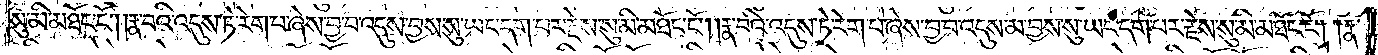སུ་མི་མཐོང་ངོ༌། །རྣ་བའི་འདུས་ཏེ་རེག་པ་ཞེས་བྱ་བ་འདུས་བྱས་སུ་ཡང་དག་པར་རྗེས་སུ་མི་མཐོང་ངོ༌། །རྣ་བའི་འདུས་ཏེ་རེག་པ་ཞེས་བྱ་བ་འདུས་མ་བྱས་སུ་ཡང་དག་པར་རྗེས་སུ་མི་མཐོང་ངོ༌། །རྣ་
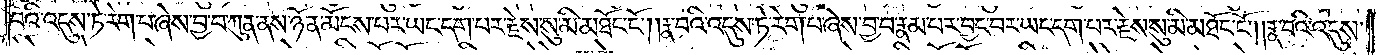བའི་འདུས་ཏེ་རེག་པ་ཞེས་བྱ་བ་ཀུན་ནས་ཉོན་མོངས་པར་ཡང་དག་པར་རྗེས་སུ་མི་མཐོང་ངོ༌། །རྣ་བའི་འདུས་ཏེ་རེག་པ་ཞེས་བྱ་བ་རྣམ་པར་བྱང་བར་ཡང་དག་པར་རྗེས་སུ་མི་མཐོང་ངོ༌། །རྣ་བའི་འདུས་
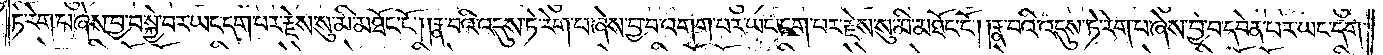ཏེ་རེག་པ་ཞེས་བྱ་བ་སྐྱེ་བར་ཡང་དག་པར་རྗེས་སུ་མི་མཐོང་ངོ༌། །རྣ་བའི་འདུས་ཏེ་རེག་པ་ཞེས་བྱ་བ་འགག་པར་ཡང་དག་པར་རྗེས་སུ་མི་མཐོང་ངོ༌། །རྣ་བའི་འདུས་ཏེ་རེག་པ་ཞེས་བྱ་བ་དབེན་པར་ཡང་དག་
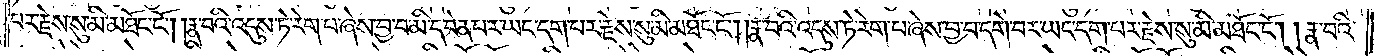པར་རྗེས་སུ་མི་མཐོང་ངོ༌། །རྣ་བའི་འདུས་ཏེ་རེག་པ་ཞེས་བྱ་བ་མི་དབེན་པར་ཡང་དག་པར་རྗེས་སུ་མི་མཐོང་ངོ༌། །རྣ་བའི་འདུས་ཏེ་རེག་པ་ཞེས་བྱ་བ་དགེ་བར་ཡང་དག་པར་རྗེས་སུ་མི་མཐོང་ངོ༌། །རྣ་བའི་
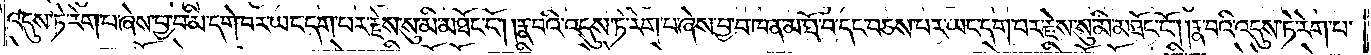འདུས་ཏེ་རེག་པ་ཞེས་བྱ་བ་མི་དགེ་བར་ཡང་དག་པར་རྗེས་སུ་མི་མཐོང་ངོ༌། །རྣ་བའི་འདུས་ཏེ་རེག་པ་ཞེས་བྱ་བ་ཁ་ན་མ་ཐོ་བ་དང་བཅས་པར་ཡང་དག་པར་རྗེས་སུ་མི་མཐོང་ངོ༌། །རྣ་བའི་འདུས་ཏེ་རེག་པ་
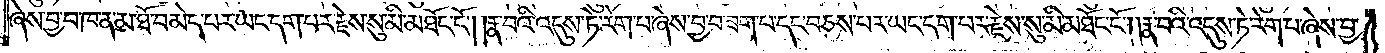ཞེས་བྱ་བ་ཁ་ན་མ་ཐོ་བ་མེད་པར་ཡང་དག་པར་རྗེས་སུ་མི་མཐོང་ངོ༌། །རྣ་བའི་འདུས་ཏེ་རེག་པ་ཞེས་བྱ་བ་ཟག་པ་དང་བཅས་པར་ཡང་དག་པར་རྗེས་སུ་མི་མཐོང་ངོ༌། །རྣ་བའི་འདུས་ཏེ་རེག་པ་ཞེས་བྱ་
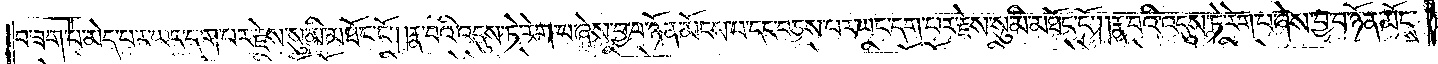བ་ཟག་པ་མེད་པར་ཡང་དག་པར་རྗེས་སུ་མི་མཐོང་ངོ༌། །རྣ་བའི་འདུས་ཏེ་རེག་པ་ཞེས་བྱ་བ་ཉོན་མོངས་པ་དང་བཅས་པར་ཡང་དག་པར་རྗེས་སུ་མི་མཐོང་ངོ༌། །རྣ་བའི་འདུས་ཏེ་རེག་པ་ཞེས་བྱ་བ་ཉོན་མོངས་
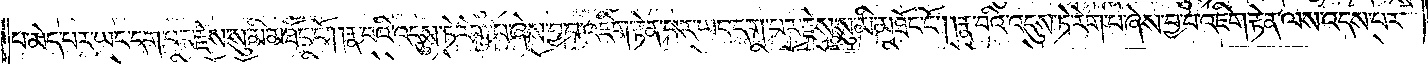པ་མེད་པར་ཡང་དག་པར་རྗེས་སུ་མི་མཐོང་ངོ༌། །རྣ་བའི་འདུས་ཏེ་རེག་པ་ཞེས་བྱ་བ་འཇིག་རྟེན་པར་ཡང་དག་པར་རྗེས་སུ་མི་མཐོང་ངོ༌། །རྣ་བའི་འདུས་ཏེ་རེག་པ་ཞེས་བྱ་བ་འཇིག་རྟེན་ལས་འདས་པར་
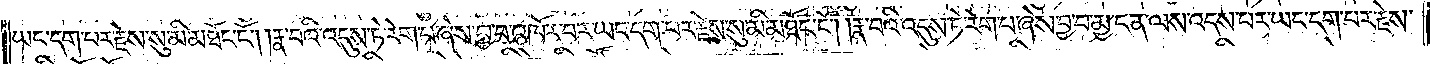ཡང་དག་པར་རྗེས་སུ་མི་མཐོང་ངོ༌། །རྣ་བའི་འདུས་ཏེ་རེག་པ་ཞེས་བྱ་བ་འཁོར་བར་ཡང་དག་པར་རྗེས་སུ་མི་མཐོང་ངོ༌། །རྣ་བའི་འདུས་ཏེ་རེག་པ་ཞེས་བྱ་བ་མྱ་ངན་ལས་འདས་པར་ཡང་དག་པར་རྗེས་
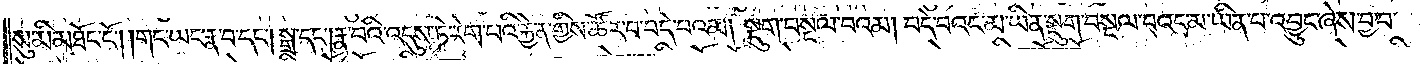སུ་མི་མཐོང་ངོ༌། །གང་ཡང་རྣ་བ་དང༌། སྒྲ་དང༌། རྣ་བའི་འདུས་ཏེ་རེག་པའི་རྐྱེན་གྱིས་ཚོར་བ་བདེ་བའམ། སྡུག་བསྔལ་བའམ། བདེ་བའང་མ་ཡིན་སྡུག་བསྔལ་བའང་མ་ཡིན་པ་འབྱུང་ཞེས་བྱ་བ་
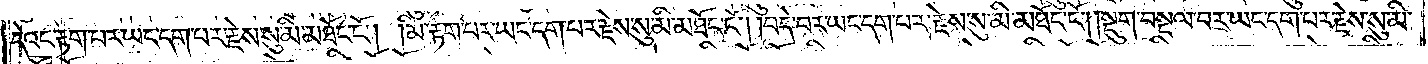དེའང་རྟག་པར་ཡང་དག་པར་རྗེས་སུ་མི་མཐོང་ངོ༌། །མི་རྟག་པར་ཡང་དག་པར་རྗེས་སུ་མི་མཐོང་ངོ༌། །བདེ་བར་ཡང་དག་པར་རྗེས་སུ་མི་མཐོང་ངོ༌། །སྡུག་བསྔལ་བར་ཡང་དག་པར་རྗེས་སུ་མི་
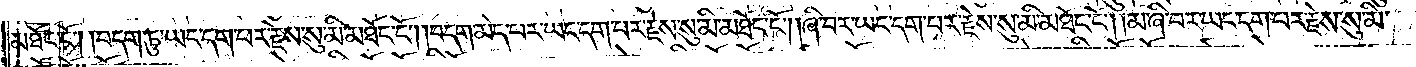མཐོང་ངོ༌། །བདག་ཏུ་ཡང་དག་པར་རྗེས་སུ་མི་མཐོང་ངོ༌། །བདག་མེད་པར་ཡང་དག་པར་རྗེས་སུ་མི་མཐོང་ངོ༌། །ཞི་བར་ཡང་དག་པར་རྗེས་སུ་མི་མཐོང་ངོ༌། །མ་ཞི་བར་ཡང་དག་པར་རྗེས་སུ་མི་
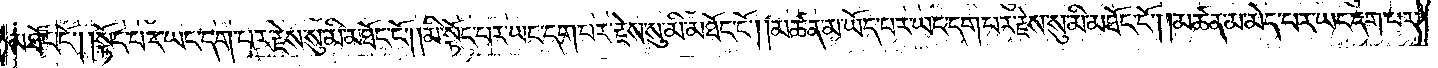མཐོང་ངོ༌། །སྟོང་པར་ཡང་དག་པར་རྗེས་སུ་མི་མཐོང་ངོ༌། །མི་སྟོང་པར་ཡང་དག་པར་རྗེས་སུ་མི་མཐོང་ངོ༌། །མཚན་མ་ཡོད་པར་ཡང་དག་པར་རྗེས་སུ་མི་མཐོང་ངོ༌། །མཚན་མ་མེད་པར་ཡང་དག་པར་
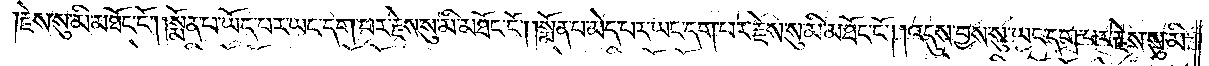རྗེས་སུ་མི་མཐོང་ངོ༌། །སྨོན་པ་ཡོད་པར་ཡང་དག་པར་རྗེས་སུ་མི་མཐོང་ངོ༌། །སྨོན་པ་མེད་པར་ཡང་དག་པར་རྗེས་སུ་མི་མཐོང་ངོ༌། །འདུས་བྱས་སུ་ཡང་དག་པར་རྗེས་སུ་མི་
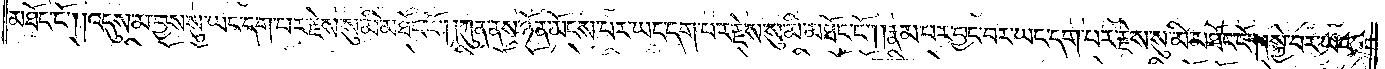མཐོང་ངོ༌། །འདུས་མ་བྱས་སུ་ཡང་དག་པར་རྗེས་སུ་མི་མཐོང་ངོ༌། །ཀུན་ནས་ཉོན་མོངས་པར་ཡང་དག་པར་རྗེས་སུ་མི་མཐོང་ངོ༌། །རྣམ་པར་བྱང་བར་ཡང་དག་པར་རྗེས་སུ་མི་མཐོང་ངོ༌། །སྐྱེ་བར་ཡང་
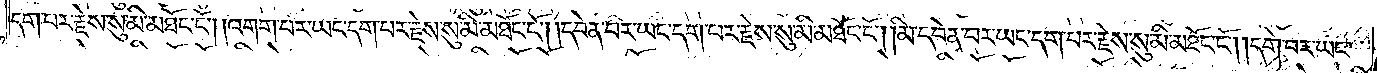དག་པར་རྗེས་སུ་མི་མཐོང་ངོ༌། །འགག་པར་ཡང་དག་པར་རྗེས་སུ་མི་མཐོང་ངོ༌། །དབེན་བར་ཡང་དག་པར་རྗེས་སུ་མི་མཐོང་ངོ༌། །མི་དབེན་བར་ཡང་དག་པར་རྗེས་སུ་མི་མཐོང་ངོ༌། །དགེ་བར་ཡང་
